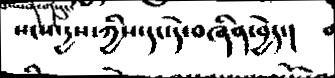སངས་དྱས་ཀྱིས་དང་དེ་བཞིན་བྱེད་།
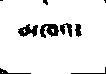མཁའ་
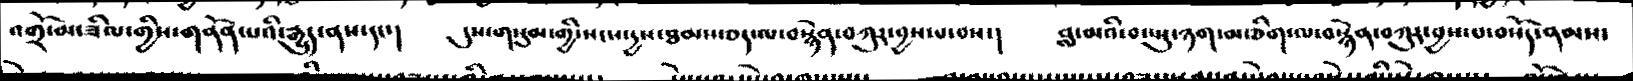འགྲོ་མ་ཟིལ་གྱིས་གནོན་པའི་རྒྱུད་ནས་དང་།   དུས་གསུམ་གྱི་སངས་དྱས་ཐམས་ཅད་ལ་བསྙེན་བཀུར་བྱས་པ་བས་།   བླ་མའི་བ་སྤུ་ཉག་ཅིག་ལ་བསྙེན་བཀུར་བྱས་པ་བསོད་ནམས་
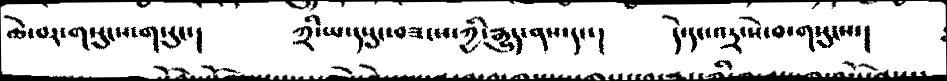ཆེ་བར་གསུངས་གསུང་།    ཀྲི་ཡ་དཔུང་བཟངས་ཀྱི་རྒྱུད་ནས་དང་།    དེ་དང་འདྲ་སེ་བ་གསུངས་།
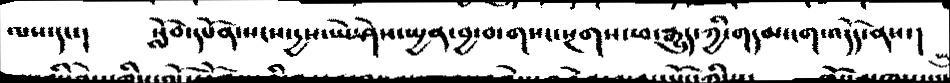ལས་དང་།  སློབ་དཔོན་སངས་དྱས་ཡེ་ཤེས་སྤྱན་བྱ་བ་གསང་སྔགས་ཕ་རྒྱུད་ཀྱི་གདམ་ངག་འདོད་ནས་།
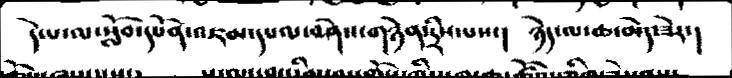དེ་པ་ལ་སློབ་དཔོན་འཇམ་དཔལ་བཤེས་གཤེན་དྲིས་པས་།   ཉེད་ལ་ཆ་མེད་ཟེར་།
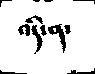འདི་ན་
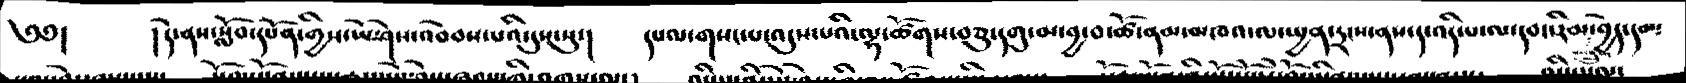༄༅།   །ནས་སློབ་དཔོན་གྱིས་ཡེ་ཤེས་འབེབས་པའི་དུས་སུ་།    དཔལ་གསང་བ་འདུས་པའི་ལྷ་ཚོགས་བཅུ་དགུ་མ་བྱ་བ་ཚོ་ནམ་མཁའ་ལ་སྤྱན་དྲངས་ནས་ད་འདི་པ་ལ་དབང་རིམ་པས་སྒྲུབ་བྱེད་དམ༴
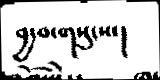བྱ་བ་གསུངས་།
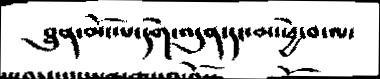ཐུན་མོང་པདགེ་འདུན་དང་མ་ཕྱེ་བ་ལ་
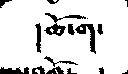།ཆོ་ག་
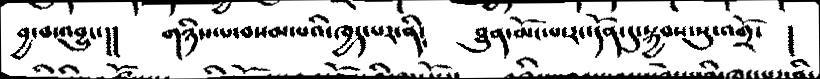བྱ་བ་འབྱུང་།།   གཉིས་པ་བསམ་པའི་ཁྱད་པར་ནི༴  ཐུན་མོང་པ་རང་དོན་དུ་སྐྱབས་སུ་འགྲོ་   །
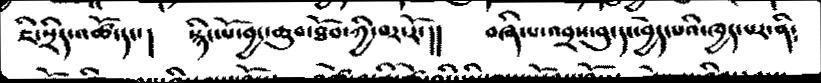ཇི་སྲིད་འཚོ་དང་།  སྙིང་པོ་བྱང་ཆུབ་ཐོབ་ཀྱི་བར་རོ་།།  བཞི་པ་འབྲས་བུ་དང་བྱེད་པའི་ཁྱད་པར་ནི༴
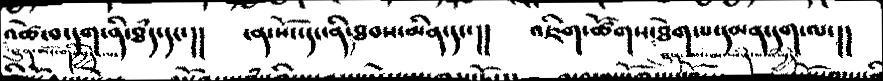འཚེ་བ་དག་ནི་ཐཾད་དང་།།  ངན་སོང་དང་ནི༴ཐབས་མིན་དང་།།  འཇིག་ཚོགས་ཐེག་པ་དམན་དག་ལ་།།
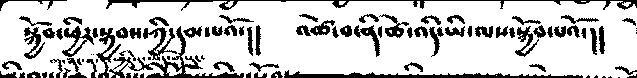སྐྱོབ་ཕྱིར་སྐྱབས་ཀྱི་དམ་པའོ་།།   འཚེ་བ་ནི་ཚེ་འདི་ཡི་ལས་སྐྱོབ་པའོ་།།
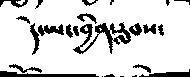དེ་ཡང་བྱིན་རླབས་
